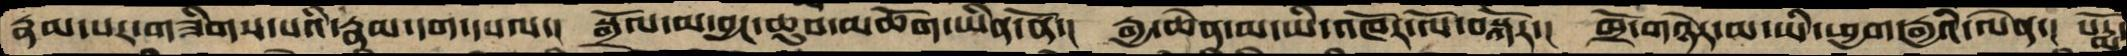རྣམ་པར་གཟིགས་པའི་རྣམ་དག་དཔལ་།  སྒྲོལ་མ་བྱང་ཆུབ་མཆོག་ཡིན་ནོ་།  རྒྱ་ཆེན་མ་ཡི་འཁོར་ལོ་བསྐོར་།  ཁྲོ་གཉེར་མ་ཡི་ཕྱག་རྒྱའི་ལེན་།  པདྨོ་
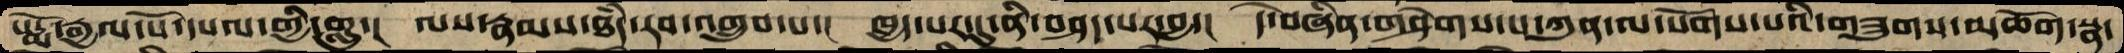པདྨོ་རྒྱལ་པོ་དཔལ་གྱི་གླུ་།  ལས་རྣམས་ཐདཾ་རབ་འགྲུབ་པ་།  ཁྱད་པར་དུ་བཤད་པར་བྱ་།  དེ་བཞིན་གཤེགས་པ་ཀུན་ལ་སོགས་པའི་གཟུགས་མཆོག་སྣ་
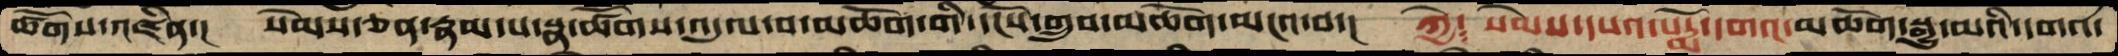ཚོགས་འཛིན་།  སེམས་ཅན་རྣམ་པ་སྣ་ཚོགས་འདུལ་བ་མཆོག་གི་དངོས་གྲུབ་མཆོག་མངའ་བ་།  ཀྱེ་ སེམས་དཔའ་པདྨོ་དགའ་མཆོག་སྒྱུ་མའི་དགའ་
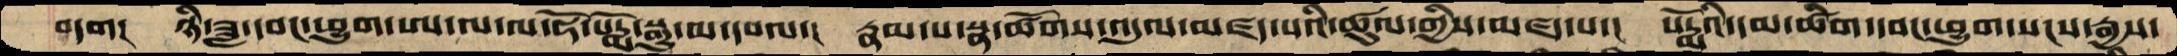བདག།  ཉི་ཟླ་དབང་ཕྱུག་ཨ་ལ་ལ་ཧོ་པདྨོ་སྒྱུ་མ་དཔལ་།  རྣམ་པ་སྣ་ཚོགས་འདུལ་མཛད་པའི་ཚུལ་གྱིས་མཛད་པ་།  པདྨོའི་དམ་ཚིག་དབང་ཕྱུག་སངས་རྒྱས་
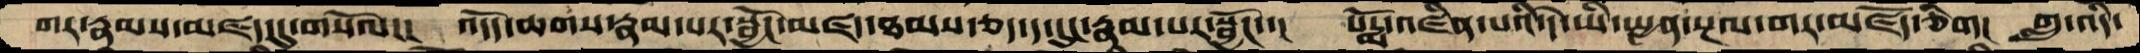གར་རྣམས་མཛད་དུ་གསོལ་།  འདོད་ཆགས་རྣམ་པར་སྦྱོང་མཛད་ཐམས་ཅད་ད་དུང་རྣམ་པར་སྦྱོང་།  པདྨོ་འཛིན་པའི་དེ་ཡི་སྤྱན་སྔལ་གར་མཛད་ཅིག།  གླུ་འདི་
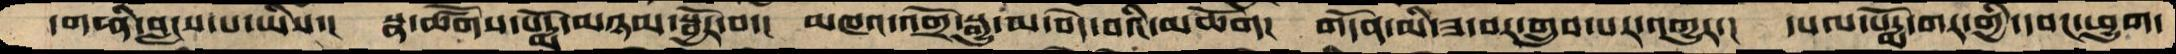དག་ནི་བླངས་པ་ཡིས་།  སྣ་ཚོགས་པདྨོ་མཉམ་སྦྱོར་བ་།  མཁའ་འགྲོ་སྒྱུ་མ་བདེ་བའི་མཆོག།  གདོན་མི་ཟ་བར་གྲུབ་པར་འགྱུར་།  དཔལ་པདྨོ་གར་གྱི་དབང་ཕྱུག་
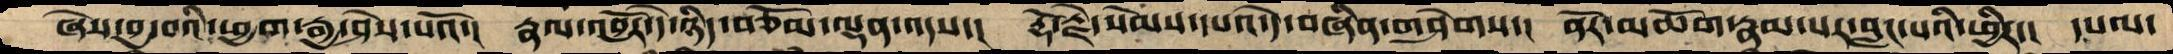ཞེས་བྱ་བའི་ཕྱག་རྒྱ་ཤེས་པའོ་།  རྣལ་འབྱོར་དེ་ཉིད་བཅོམ་ལྡན་འདས་།  རྡོ་རྗེ་སེམས་དཔའ་དེ་བཞིན་གཤེགས་།  ནོར་མཆོག་རྣམ་པར་བླང་པའི་ཕྱིར་།  དཔལ་
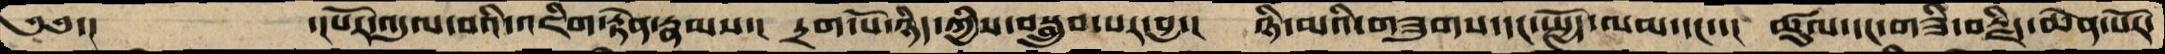༄༅་།          ་།པོར་འདུལ་བའི་འཇིག་རྟེན་རྣམས་།  དྲག་པོ་ཉིད་ཀྱིས་བསྒྲུབ་པར་བྱ་།  ཉི་མའི་གཟུགས་དང་སྤྱོད་ལམ་དང་་།  ཚུལ་དང་གཟི་བརྗིད་ཆེན་པོར་
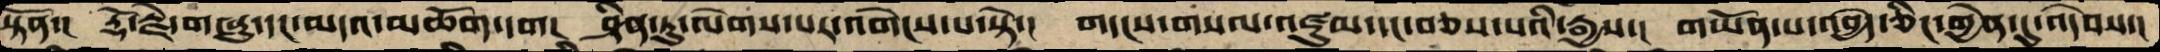སྟོན་།  རྡོ་རྗེ་གཞུ་དང་མདའ་མཆོག་དག།  ཤིན་ཏུ་ལེགས་པར་འགེངས་པ་སྟེ་།   གདངས་གསལ་འཛུམ་དང་བཅས་པའི་རྒྱས་།  གཡོན་པ་འབྱེད་ཅིང་གྱེན་དུ་འདེབས་།
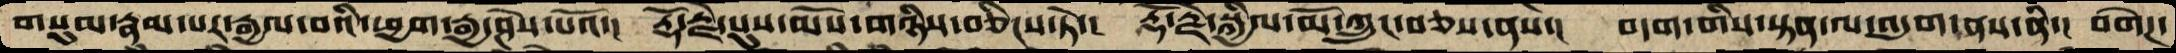གསུམ་རྣམ་པར་རྒྱལ་བའི་ཕྱག་རྒྱ་ཤེས་པའོ་།  རྡོ་རྗེ་པུས་མོས་གཉིས་བཅིངས་ཏེ་།  རྡོ་རྗེ་སྐྱིལ་མོ་ཀྲུང་བཅས་ནས་།  བདག་གིས་སྟན་ལ་འདུག་ནས་ནི་།  བགེཌ་
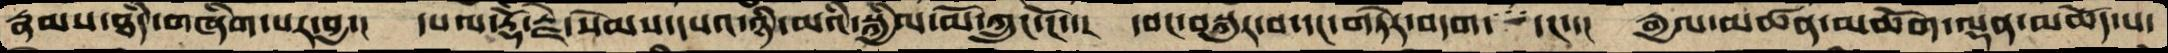རྣམས་ཐདཾ་གཞིག་པར་བྱ་།  དཔལ་རྡོ་རྗེ་སེམས་དཔའ་ཉི་མའི་སྐྱིལ་མོ་ཀྲུང་ངོ་་།  དབང་བསྐུར་བ་དང་གཏེར་བདག་  དང་་།  རྒྱལ་མཚན་མཆོག་ལྡན་མཆོད་པ་
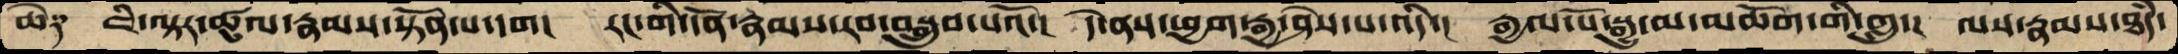ཆེ༑  ཇི་ལྟར་ཚུལ་རྣམས་སྟོན་པ་དག།  རང་གི་དོན་རྣམས་རབ་བསྒྲུབ་པའོ་།  དེ་ནས་ཕྱག་རྒྱ་ཤེས་པ་འདི་།  རྒྱལ་པོ་སྒྱུ་མ་མཆོག་གི་གླུ་།  ལས་རྣམས་ཐདཾ་
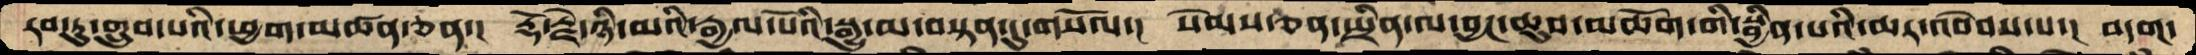རབ་ཏུ་གྲུབ་པའི་ཕྱག་མཚན་ཅན་།  རྡོ་རྗེ་ཉི་མའི་རྒྱལ་པོའི་སྒྱུ་མ་བསྟན་དུ་གསོལ་།  སེམས་ཅན་སྤྲིན་ལ་བྱང་ཆུབ་མཆོག་གི་སྦྱིན་པའི་ཆར་འབེབས་པ་།  བདག་
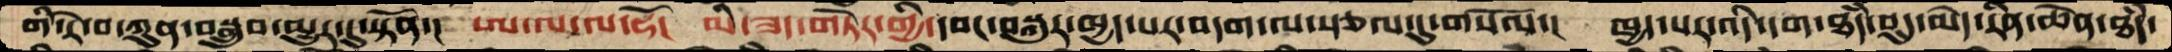གི་རེ་བ་ཀུན་བསྒྲུབ་མྱུར་དུ་སྟོན་།  ཨ་ལ་ལ་ཧོ།  མི་ཟད་གཏེར་གྱི་དབང་བསྐུར་ཁྱད་པར་བདག་ལ་སྩལ་དུ་གསོལ་།  ཁྱད་པར་འདི་དག་ཐཾད་བུད་མེད་རིན་ཆེན་ཐཾད་
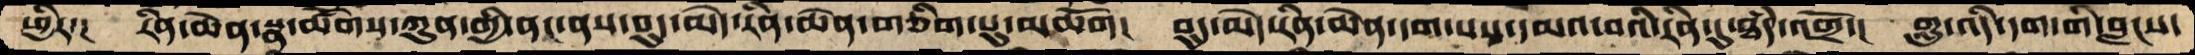ཕྱིར་།   རིན་ཆེན་སྣ་ཚོགས་ཀུན་གྱི་ནང་ནས་བུད་མེད་རིན་ཆེན་གཅིག་པུ་མཆོག།  བུད་མེད་རིན་ཆེན་དག་པས་དམའ་བའི་རིན་དུ་ཐཾད་འགྲོ་།  གླུ་འདི་དག་གི་བླངས་
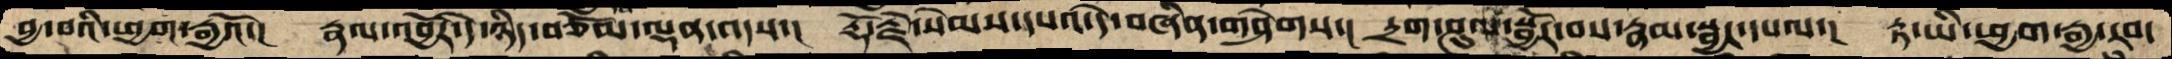བྱ་བའི་ཕྱག་རྒྱའོ་།  རྣལ་འབྱོར་དེ་ཉིད་བཅོམ་ལྡན་འདས་།  རྡོ་རྗེ་སེམས་དཔའ་དེ་བཞིན་གཤེགས་།  དྲག་ཤུལ་སྦྱོར་བས་རྣམ་སྦྱང་དཔལ་།  རྟ་ཡི་ཕྱག་རྒྱ་རབ་
